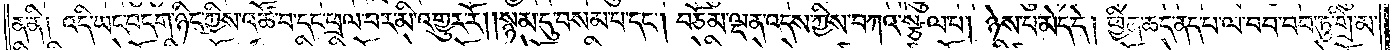ན་ནི། འདི་ཡང་བདག་ཉིད་ཀྱིས་འཚོ་བ་དང་ཕྲལ་བར་མི་འགྱུར་རོ། །སྙམ་དུ་བསམ་པ་དང༌། བཅོམ་ལྡན་འདས་ཀྱིས་བཀའ་སྩལ་པ། ཉེས་པ་མེད་དེ། ཕྱིན་ཆད་ནད་པ་ལ་བབ་བབ་ཏུ་གྲི་མ་
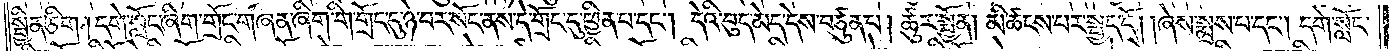སྦྱིན་ཅིག །དགེ་སློང་ཞིག་གྲོང་གཞན་ཞིག་གི་གྲོང་དུ་ཉེ་བར་སོང་ནས་དེ་གྲོང་དུ་ཕྱིན་པ་དང༌། དེའི་བུད་མེད་དེས་བཙུན་པ། ཚུར་སྤྱོན། མི་ཚངས་པར་སྤྱད་དོ། །ཞེས་སྨྲས་པ་དང༌། དགེ་སློང་
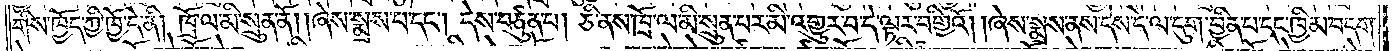གིས་ཁྱོད་ཀྱི་ཁྱོ་དེ་ནི། ཁྲོ་ལ་མི་སྲུན་ནོ། །ཞེས་སྨྲས་པ་དང༌། དེས་བཙུན་པ། ཅི་ནས་ཁྲོ་ལ་མི་སྲུན་པར་མི་འགྱུར་བ་དེ་ལྟར་བགྱིའོ། །ཞེས་སྨྲས་ནས་དེས་དེ་ལ་དུག་བྱིན་པ་དང་ཁྱིམ་བདག་
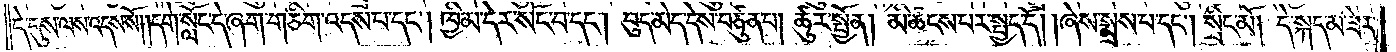དེ་དུས་ལས་འདས་སོ། །དགེ་སློང་དེ་ཞག་གཅིག་འདས་པ་དང༌། ཁྱིམ་དེར་སོང་བ་དང༌། བུད་མེད་དེས་བཙུན་པ། ཚུར་སྤྱོན། མི་ཚངས་པར་སྤྱད་དོ། །ཞེས་སྨྲས་པ་དང༌། སྲིང་མོ། དེ་སྐད་མ་ཟེར་
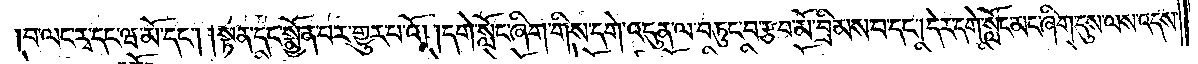བ་ལང་རྭ་དང་ཝ་མོ་དང༌། །སྟན་དང་སྨྱོན་པར་གྱུར་བའོ། །དགེ་སློང་ཞིག་གིས་དགེ་འདུན་ལ་བཏུང་བ་རྩབ་མོ་བྲིམས་བ་དང༌། དེར་དགེ་སློང་མང་ཞིག་དུས་ལས་འདས་
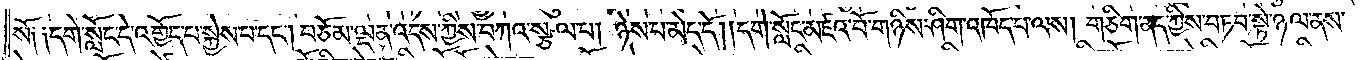སོ༑ ༑དགེ་སློང་དེ་འགྱོད་པ་སྐྱེས་པ་དང༌། བཅོམ་ལྡན་འདས་ཀྱིས་བཀའ་སྩལ་པ། ཉེས་པ་མེད་དོ། །དགེ་སློང་མཛའ་བོ་གཉིས་ཤིག་འཁོད་པ་ལས། གཅིག་ནད་ཀྱིས་བཏབ་སྟེ་ཉལ་ནས་
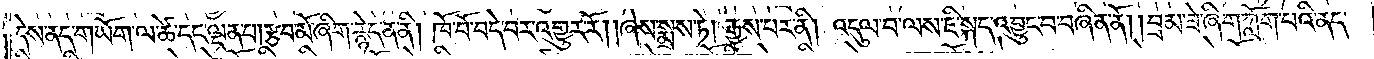དེས་ནད་གཡོག་ལ་ཚེ་དང་ལྡན་པ། རྩབ་མོ་ཞིག་རྙེད་ན་ནི། ཁོ་བོ་བདེ་བར་འགྱུར་རོ། །ཞེས་སྨྲས་ཏེ། རྒྱས་པར་ནི། འདུལ་བ་ལས་ཇི་སྐད་འབྱུང་བ་བཞིན་ནོ། །བྲམ་ཟེ་ཞིག་ཀློག་པའི་ནད་
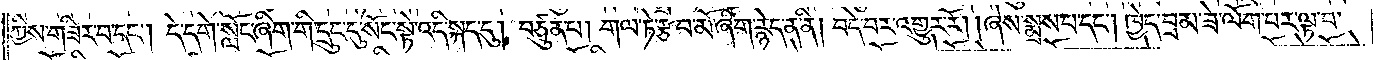ཀྱིས་གཟིར་བ་དང༌། དེ་དགེ་སློང་ཞིག་གི་དྲུང་དུ་སོང་སྟེ་འདི་སྐད་དུ། བཙུན་པ། གལ་ཏེ་རྩབ་མོ་ཞིག་རྙེད་ན་ནི། བདེ་བར་འགྱུར་རོ། །ཞེས་སྨྲས་པ་དང༌། ཁྱེད་བྲམ་ཟེ་ལོག་པར་ལྟ་བ་
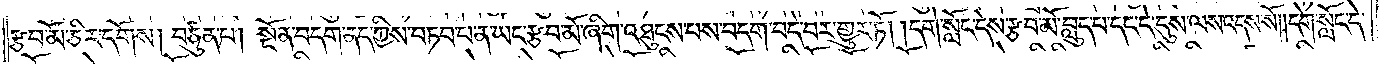རྩབ་མོ་ཅིར་དགོས། བཙུན་པ། སྔོན་བདག་ནད་ཀྱིས་བཏབ་པ་ན་ཡང་རྩབ་མོ་ཞིག་འཐུངས་པས་བདག་བདེ་བར་གྱུར་ཏོ། །དགེ་སློང་དེས་རྩབ་མོ་བླུད་པ་དང་དེ་དུས་ལས་འདས་སོ། །དགེ་སློང་དེ་
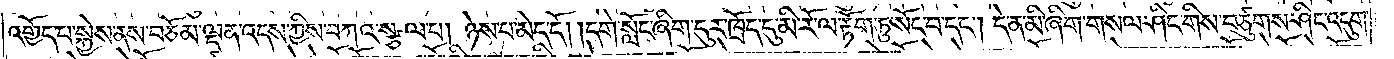འགྱོད་པ་སྐྱེས་ནས་བཅོམ་ལྡན་འདས་ཀྱིས་བཀའ་སྩལ་པ། ཉེས་པ་མེད་དོ། །དགེ་སློང་ཞིག་དུར་ཁྲོད་དུ་མི་རོ་ལ་རྟོག་ཏུ་སོང་བ་དང༌། དེ་ན་མི་ཞིག་གསལ་ཤིང་གིས་བཙུགས་ཤིང་འདུག་
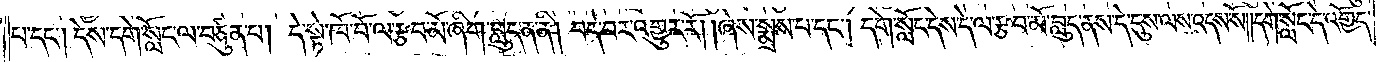པ་དང༌། དེས་དགེ་སློང་ལ་བཙུན་པ། དེ་སྟེ་ཁོ་བོ་ལ་རྩབ་མོ་ཞིག་བླུད་ན་ནི། བདེ་བར་འགྱུར་རོ། །ཞེས་སྨྲས་པ་དང༌། དགེ་སློང་དེས་དེ་ལ་རྩབ་མོ་བླུད་ནས་དེ་དུས་ལས་འདས་སོ། །དགེ་སློང་དེ་འགྱོད་
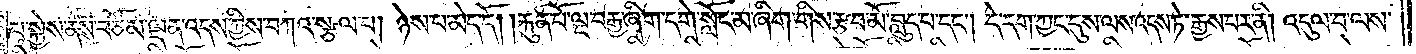པ་སྐྱེས་ནས་བཅོམ་ལྡན་འདས་ཀྱིས་བཀའ་སྩལ་པ། ཉེས་པ་མེད་དོ། །རྐུན་པོ་ལྔ་བརྒྱ་ཞིག་དགེ་སློང་མ་ཞིག་གིས་རྩབ་མོ་བླུད་པ་དང༌། དེ་དག་ཀྱང་དུས་ལས་འདས་ཏེ་རྒྱས་པར་ནི། འདུལ་བ་ལས་
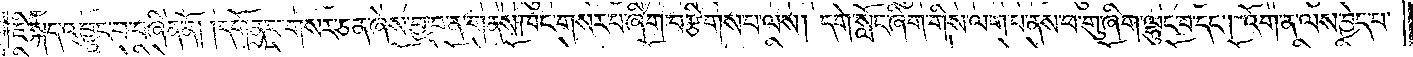ཇི་སྐད་འབྱུང་བ་བཞིན་ནོ། །དགོན་པ་གསར་ཅན་ཞེས་བྱ་བ་ན་གནས་ཁང་གསར་པ་ཞིག་བརྩིགས་པ་ལས། དགེ་སློང་ཞིག་གིས་ལག་པ་ནས་ཕ་གུ་ཞིག་ལྷུང་བ་དང༌། འོག་ན་ལས་བྱེད་པ་
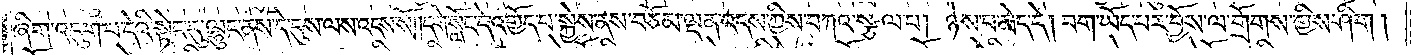ཞིག་འདུག་པ་དེའི་སྟེང་དུ་ལྷུང་ནས་དེ་དུས་ལས་འདས་སོ། །དགེ་སློང་དེ་འགྱོད་པ་སྐྱེས་ནས་བཅོམ་ལྡན་འདས་ཀྱིས་བཀའ་སྩལ་པ། ཉེས་པ་མེད་དེ། བག་ཡོད་པར་བྱོས་ལ་གྲོགས་གྱིས་ཤིག །
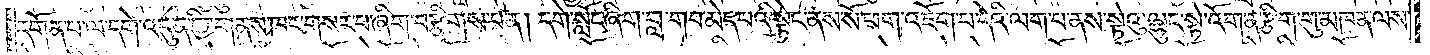དགོན་པ་ལ་དགེ་འདུན་གྱི་གནས་ཁང་གསར་པ་ཞིག་བརྩིགས་པ་ན། དགེ་སློང་ཞིག་བླ་གབ་མེད་པའི་སྟེང་ནས་སོ་ཕག་འཇོག་པ་དེའི་ལག་པ་ནས་སྟེའུ་ལྷུང་སྟེ་འོག་ན་རྩིག་གུ་མཁན་ལས་
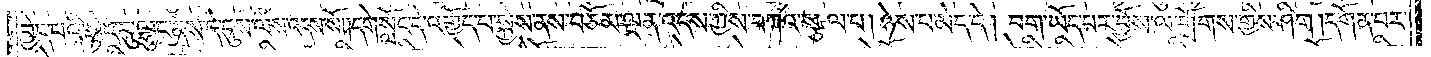བྱེད་པའི་སྟེང་དུ་ལྷུང་ནས་དེ་དུས་ལས་འདས་སོ། །དགེ་སློང་དེ་འགྱོད་པ་སྐྱེས་ནས་བཅོམ་ལྡན་འདས་ཀྱིས་བཀའ་སྩལ་པ། ཉེས་པ་མེད་དེ། བག་ཡོད་པར་བྱོས་ལ་གྲོགས་གྱིས་ཤིག །དགོན་པར་
